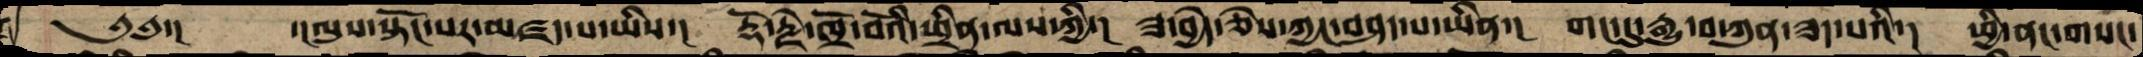༄༅་།    ་་།ལུས་སྟོང་པར་མཛད་པ་ཡིས་། རྡོ་རྗེ་ཁྲོ་བོའི་ཕྲིན་ལས་ཀྱི་། ཟ་བྱེད་ཅེས་ཀྱང་བཤད་པ་ཡིན་། གང་དུ་རྒྱུ་བ་ཀུན་ཟད་པའི་། ཕྱི་ནང་གསང་
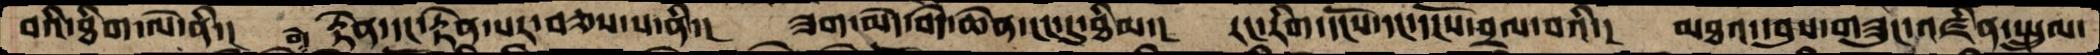བའི་ཐིག་ལེ་ནི་། རྟེན་དང་རྟེན་པར་བཅས་པ་ནི་། ཟག་མེད་བདེ་ཆེན་ངང་དུ་ཐིམ་། རང་རིག་དངོས་དང་དངོས་བྲལ་བའི་། མཐའ་དབུས་གཟུང་འཛིན་སྤྲུལ་
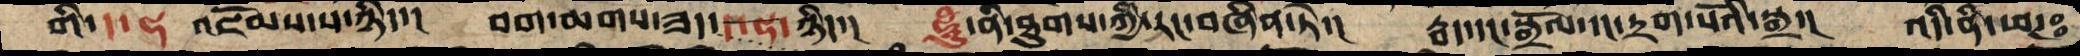གི་ད་ཧ འཇོམས་པ་ཉིད་། བག་ཆགས་ཟད་ད་ཧ་ཉིད་། ཧཱུཾ་ནི་ཐུགས་ཀྱི་རང་བཞིན་ཏེ་། རྦད་དང་སྒྲོལ་དང་དྲག་པོའི་སྒྲ་། འདི་ནི་ཕཊཿ
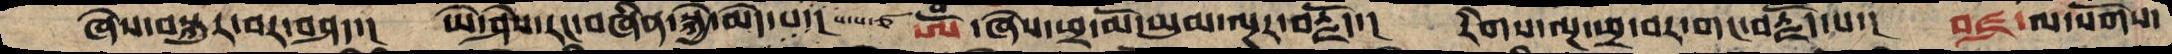ཞེས་བསྐུར་བར་བཤད་། ཡེ་ཤེས་རང་བཞིན་སྐྱེ་མེད་པ་།  ས་པ་ཙ  ཨོཾ་ཞེས་ཕྲ་མོ་ཡུམ་ལྔར་བརྗོད་། རིགས་ལྔ་ཕྲ་བར་གང་བརྗོད་པ་། བཛྲ་ལ་སོགས་
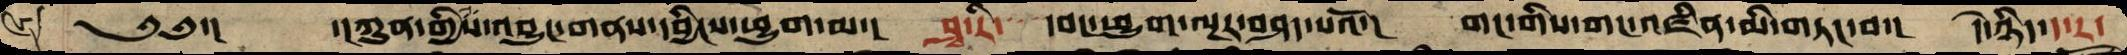༄༅་།   ་།ཀུན་གྱིས་འབྱུང་གནས་དབྱིངས་ཕྱུག་མ་། ཤྭ་རི་   དབང་ཕྱུག་ལྔར་བཤད་པའོ་། གང་གིས་གང་འཛིན་མི་གཏང་བ་། དེ་ཉིད་ད་ར་
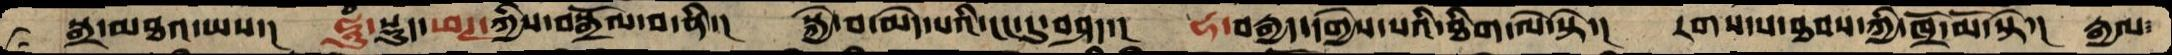སྒྲ་མཐའ་ཡས་། ཧཱུཾ་སྡུད་ཕཊ་ཀྱིས་བསྒྲོལ་བ་ནི་། སྐྱེ་བ་མེད་པའི་ངང་དུ་བཤད་། ཧ་བརྒྱད་དགྱེས་པའི་ཐིག་ལེ་སྟེ་། རགས་པ་ཐབས་ཀྱི་ཁྲོ་མོ་སྟེ་། རྒྱལ་
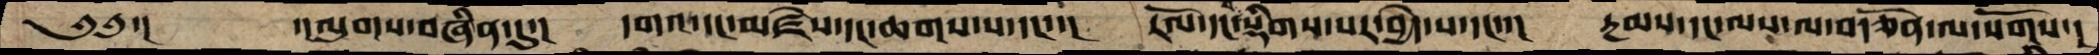༄༅་།    ་།ལུགས་བཞིན་དུ་། དགའ་དང་མཛེས་དང་ཆགས་པ་དང་་། རོལ་དང་བསྡིག་པར་བྱེད་པ་དང་་། རྔམས་དང་ལས་ལ་བརྩོན་ལ་སོགས་།
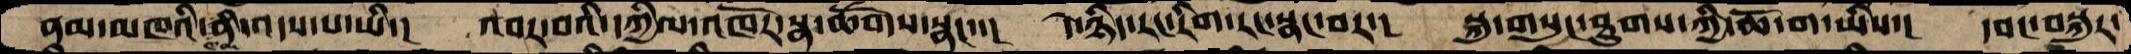ནམ་མཁའི་ཁམ་ནི་འདས་པ་ཡི་། འབར་བའི་དཀྱིལ་འཁོར་སྣ་ཚོགས་སྣང་་། དེ་ཉིད་རང་རིག་རང་སྣང་བར་། སྐུ་གསུང་ཐུགས་ཀྱི་ཆོ་ག་ཡིས་། དབང་བསྐུར་
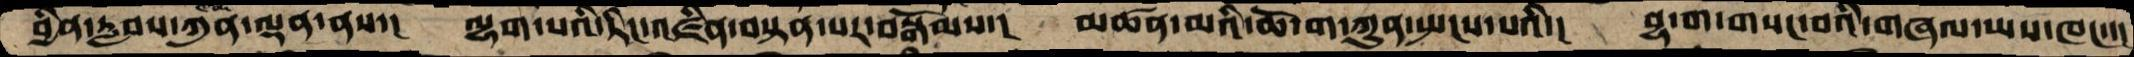བྱིན་རླབས་ཀུན་ལྡན་ནས་། ལྷག་པའི་ཏིང་འཛིན་བསྟན་པར་བསྒོམས་། མཚན་མའི་ཆོ་ག་ཀུན་སྤངས་པའི་། བྷ་ག་གསང་བའི་གཞལ་ཡས་ཁང་་།
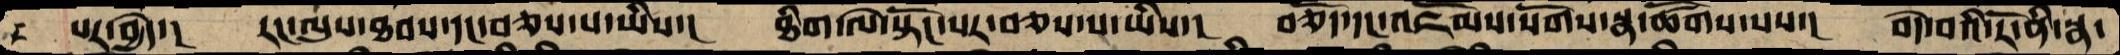པར་བྱེད་། རང་ལུས་ཐབས་དང་བཅས་པ་ཡིས་། ཐིག་ལེ་སྟོང་པར་བཅས་པ་ཡིས་། བཅོད་དང་འཇོམས་སོགས་སྣ་ཚོགས་པས་། བདེ་བའི་རོ་ནི་སྣ་
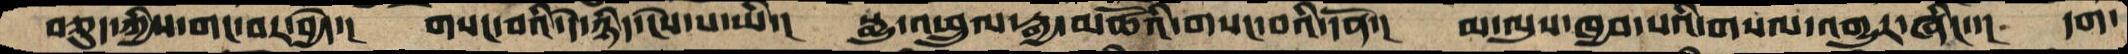བཅུད་ཀྱིས་གང་བར་བྱེད་།   གསང་བའི་དེ་ཉིད་ངེས་པ་ཡི་།   སྒྱུ་འཕྲུལ་རྒྱ་མཚོའི་གསང་བའི་དོན་།   མ་ལུས་ཁྱབ་པའི་གསལ་འགྱུར་ཞིང་་།   དག་
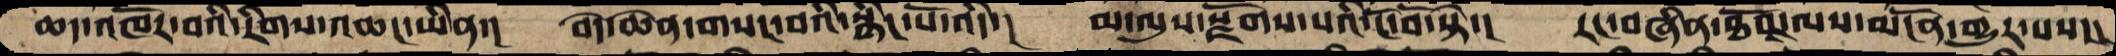ཆད་འཁོར་བའི་རིགས་འཆང་ཡིན་། བདེ་ཆེན་གསང་བའི་སྙིང་པོ་འདི་། མ་ལུས་སྫོགས་པའི་ངོ་བོ་སྟེ་། རང་བཞིན་ཐོབ་ལས་མངོན་གྱུར་པས་།
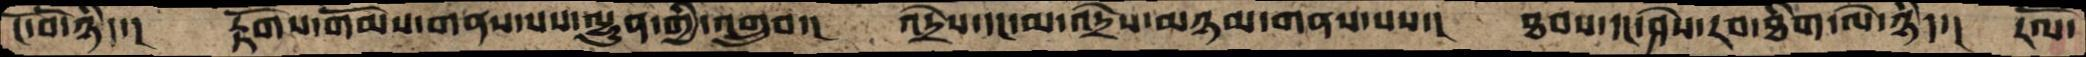ངོ་བོ་ཉིད་།  རྟོགས་གོམས་གནས་པས་ལྷུན་གྱི་འགྲུབ་།  འདྲེས་དང་མ་འདྲེས་མཉམ་གནས་པས་།  ཐབས་དང་ཤེས་རབ་ཐིག་ལེ་ཉིད་།  རོལ་
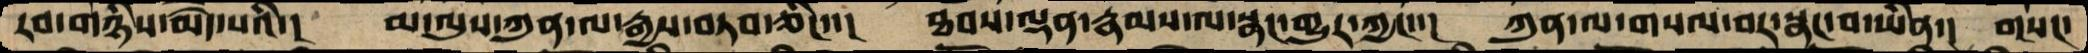རབ་གཉིས་མེད་པའི་།   མ་ལུས་ཀུན་ལ་རྒྱས་བཏབ་ཅིང་་།   ཐབས་ལྡན་རྣམས་ལ་སྣང་གྱུར་ཀྱང་་།   ཀུན་ལ་གསལ་བར་སྣང་བ་ཡིན་།  གསང་
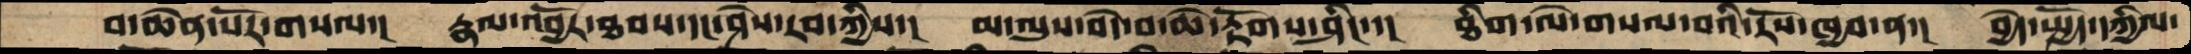བ་ཆེན་པོར་གསལ་།  རྣལ་འབྱོར་ཐབས་དང་ཤེས་རབ་ཀྱིས་།  མ་ལུས་བདེ་བ་ཆེ་རྟོགས་ཤིང་་།   ཐིག་ལེ་གསལ་བའི་རོས་ཁྱབ་ན་།   བྱེད་སྤྱོད་དཀྱིལ་
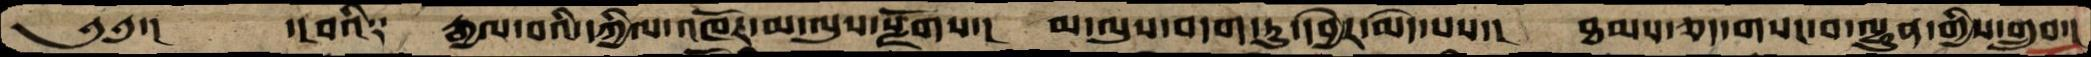༄༅་།     ་བའི༑ རྒྱལ་བའི་དཀྱིལ་འཁོར་མ་ལུས་སྫོགས་། མ་ལུས་བདག་ཏུ་དབྱེར་མེདཔས་། ཐམས་ཅད་གསང་བ་ལྷུན་གྱིས་གྲུབ་།
